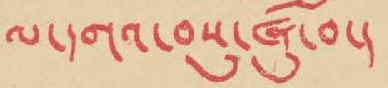ལ་དགའ་བསུ་ཞུ་བ་།
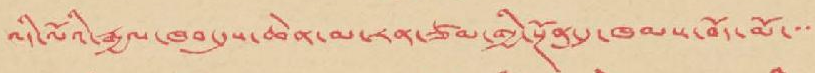འདི་ལོའི་རྒྱལ་ཁབ་དུས་ཆེན་མ་རན་ཙམ་གྱི་སྔོན་དུ་ཁམས་བོད་མོ་་་
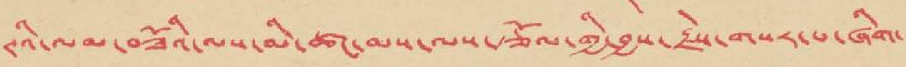ཊའི་ལམ་བཟོའི་ལས་མི་ཚང་མས་ལས་རྩོལ་གྱི་བྱས་རྗེས་གསར་པ་ཞིག་
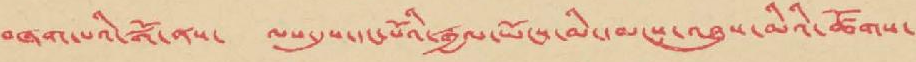བཞག་པའི་སྒོ་ནས་ ལས་དུས་དང་པོའི་རྒྱལ་ཡོངས་མི་དམངས་འཐུས་མིའི་ཚོགས་
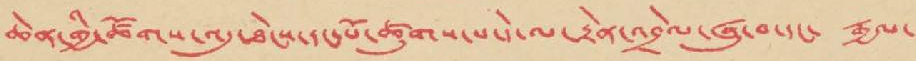ཆེན་གྱི་ཚོགས་འདུ་ཐེངས་དང་པོ་ཚུགས་པ་དེ་ལ་རྟེན་འབྲེལ་ཞུ་བ་དང་ རྒྱལ་
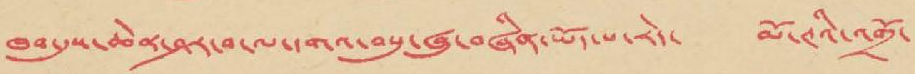ཁབ་དུས་ཆེན་ཤར་བ་དགའ་བསུ་ཞུ་བཞིན་ཡོད་པ་རེད་ མོ་ཊའི་འགྲོ་
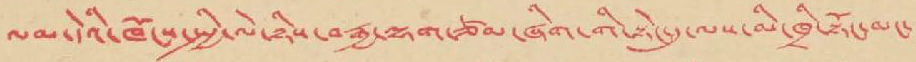ལམ་དེའི་ཁོངས་སྤྱི་ལེ་ཉིས་བརྒྱ་ལྷག་ཙམ་ཞིག་གི་སྟེང་དུ་ལས་མི་ཁྲི་སྟོང་མང་
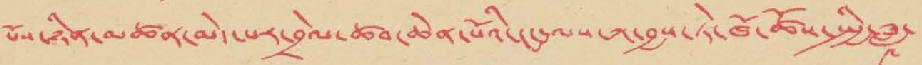པོས་ཉིན་མཚན་མེད་པར་བྲེལ་ཚབ་ཆེན་པོའི་ངང་ལས་ཀ་བྱས་ཏེ་ཁོ་ཚོས་སྤྱི་ཟླ་
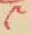༩
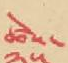ཚེས་
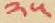༢༥
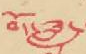བོད་ཟླ་
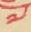༧
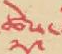ཚེས་
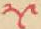༢༩
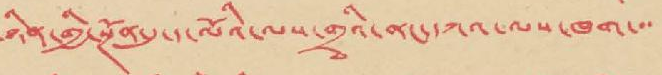ཉིན་གྱི་སྔོན་དུ་ད་ལོའི་ལས་གྲྭའི་ནང་དཀའ་ལས་ཁག་་་
